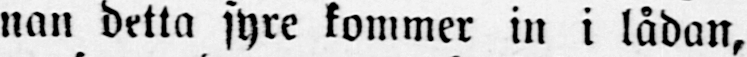nan detta syre kommer in i lådan,
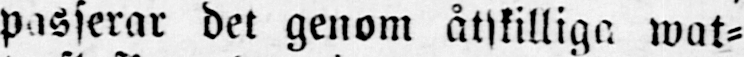passerar det genom åtskilliga wat-
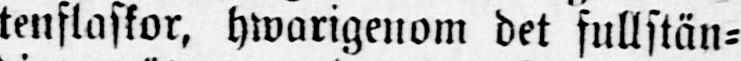tenflaskor, hwarigenom det fullstän-
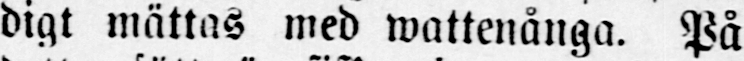digt mättas med wattenånga. På
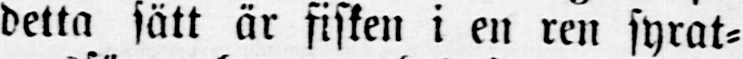detta sätt är fisken i en ren syrat-
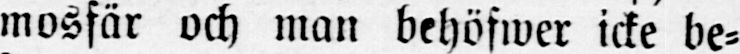mosfär och man behöfwer icke be-
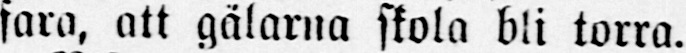fara, att gälarna skola bli torra.
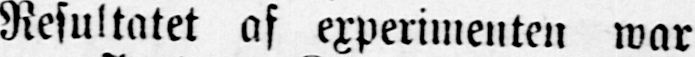Resultatet af experimenten war
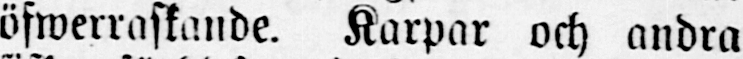öfwerraskande. Karpar och andra
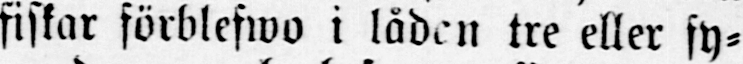fiskar förblefwo i lådan tre eller fy-
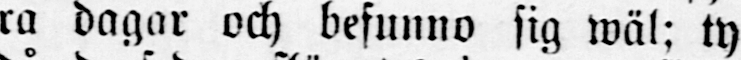ra dagar och befunno sig wäl; ty
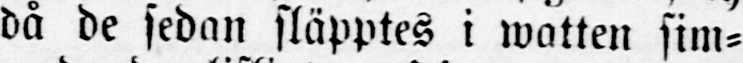då de sedan släpptes i watten sim-
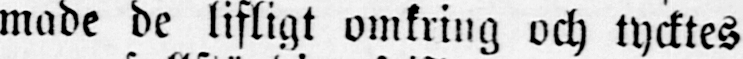made de lifligt omkring och tycktes
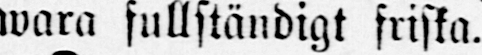wara fullständigt friska.
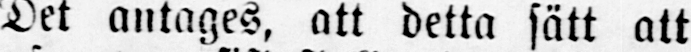Det antages, att detta sätt att
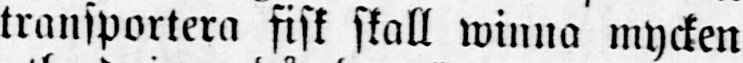transportera fisk skall winna mycken
